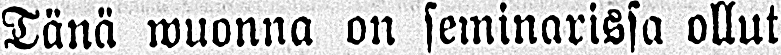Tänä wuonna on seminarissa ollut
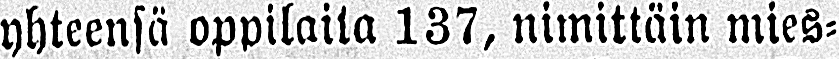yhteensä oppilaita 137, nimittäin mies-
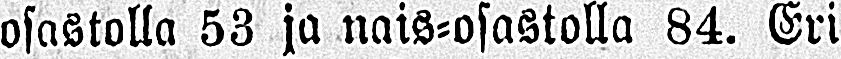osastolla 53 ja nais-osastolla 84. Eri
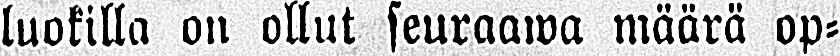luokilla on ollut seuraawa määrä op-
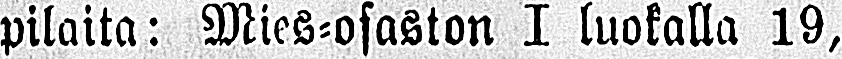pilaita: Mies-osaston I luokalla 19,
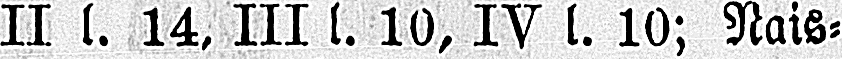II l. 14, III l. 10, IV l. 10; Nais-
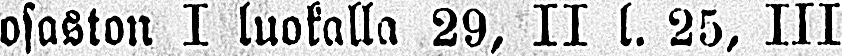osaston I luokalla 29, II l. 25, III
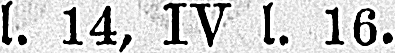l. 14, IV l. 16.
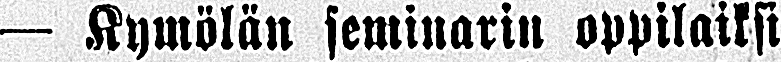— Kymölän seminarin oppilaiksi
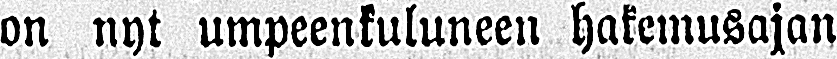on nyt umpeenkuluneen hakemusajan
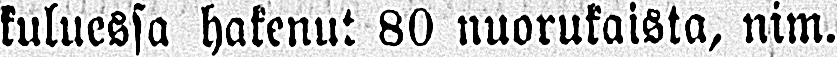kuluessa hakenut 80 nuorukaista, nim.
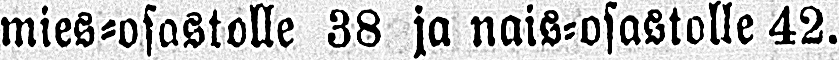mies-osastolle 38 ja nais-osastolle 42.
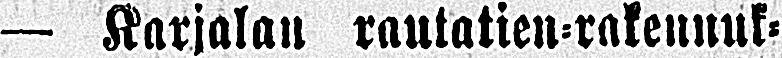— Karjalan rautatien-rakennuk-
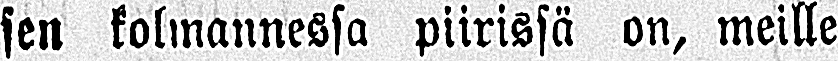sen kolmannessa piirissä on, meille
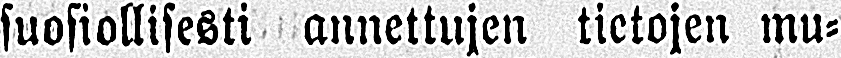suosiollisesti annettujen tietojen mu-
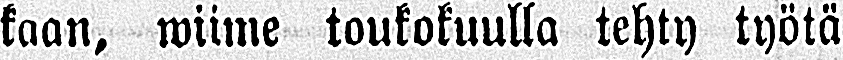kaan, wiime toukokuulla tehty työtä
